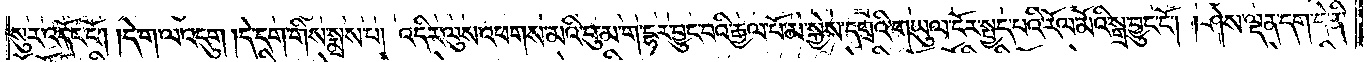སུར་འདོང་ངོ༌། །དེ་དག་ལ་འདུག །དེ་དག་གིས་སྨྲས་པ། འདིར་ལུས་འཕགས་མའི་བུ་མ་ག་དྷར་བྱུང་བའི་རྒྱལ་པོ་མ་སྐྱེས་དགྲའི་གཡུལ་ངོར་སྤྱད་པའི་རོལ་མོའི་སྒྲ་བྱུང་ངོ༌། །ཤེས་ལྡན་དག་དེ་ནི་
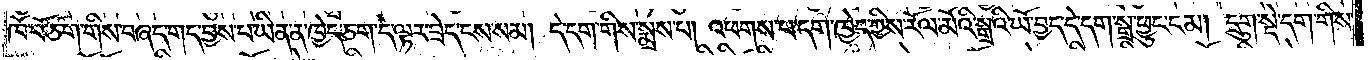ཁོ་བོ་ཅག་གིས་བཞད་གད་བྱས་པ་ཡིན་ན་ཁྱེད་ཅག་དེ་ལྟར་བྲེད་ངས་སམ། དེ་དག་གིས་སྨྲས་པ། འཕགས་པ་དག་ཁྱེད་ཀྱིས་རོལ་མོའི་སྒྲའི་ཡོ་བྱད་དེ་དག་སྒྲ་ཕྱུང་ངམ། དྲུག་སྡེ་དག་གིས་
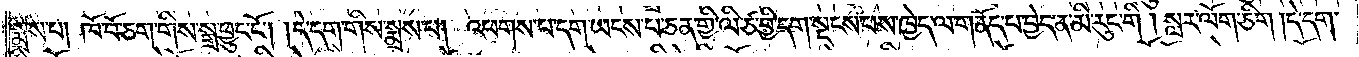སྨྲས་པ། ཁོ་བོ་ཅག་གིས་སྒྲ་ཕྱུང་ངོ༌། །དེ་དག་གིས་སྨྲས་པ། འཕགས་པ་དག་ཡངས་པ་ཅན་གྱི་ལི་ཙ་བྱི་དག་སྡངས་པས་ཁྱེད་ལ་གནོད་པ་བྱེད་ན་མི་རུང་གི །སླར་ལོག་ཅིག །དེ་དག་
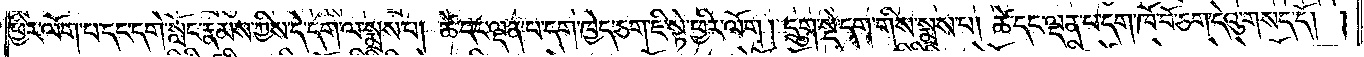ཕྱིར་ལོག་པ་དང་དགེ་སློང་རྣམས་ཀྱིས་དེ་དག་ལ་སྨྲས་པ། ཚེ་དང་ལྡན་པ་དག་ཁྱེད་ཅག་ཇི་སྟེ་ཕྱིར་ལོག །དྲུག་སྡེ་དག་གིས་སྨྲས་པ། ཚེ་དང་ལྡན་པ་དག་ཁོ་བོ་ཅག་དེའུ་གསད་དོ། །
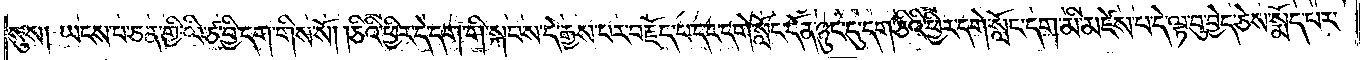སུས། ཡངས་པ་ཅན་གྱི་ལི་ཙ་བྱི་དག་གིས་སོ། །ཅིའི་ཕྱིར་དེ་དག་གིས་སྐབས་དེ་རྒྱས་པར་བརྗོད་པ་དང་དགེ་སློང་དོན་ཉུང་དུ་དག་ཅིའི་ཕྱིར་དགེ་སློང་དག་མི་མཛེས་པ་དེ་ལྟ་བུ་བྱེད་ཅེས་སྨོད་པར་
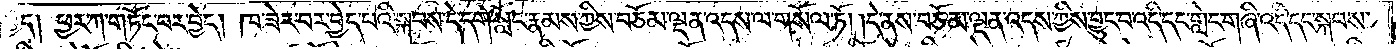བྱེད། ཕྱར་ཀ་གཏོང་བར་བྱེད། ཁ་ཟེར་བར་བྱེད་པའི་སྐབས་དེ་དགེ་སློང་རྣམས་ཀྱིས་བཅོམ་ལྡན་འདས་ལ་གསོལ་ཏོ། །དེ་ནས་བཅོམ་ལྡན་འདས་ཀྱིས་བྱུང་བ་འདི་དང་གླེང་གཞི་འདི་དང་སྐབས་
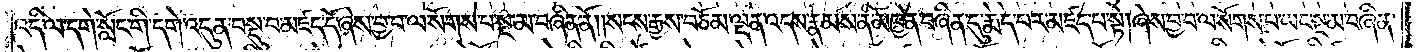འདི་ལ་དགེ་སློང་གི་དགེ་འདུན་བསྡུ་བ་མཛད་དོ་ཞེས་བྱ་བ་ལ་སོགས་པ་སྔ་མ་བཞིན་ནོ། །སངས་རྒྱས་བཅོམ་ལྡན་འདས་རྣམས་ནི་མཁྱེན་བཞིན་དུ་རྨེད་པར་མཛད་པ་སྟེ། ཞེས་བྱ་བ་ལ་སོགས་པ་ཡང་སྔ་མ་བཞིན་
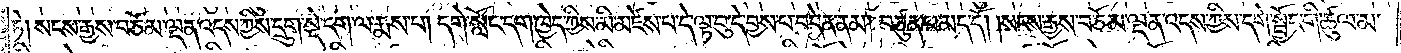ཏེ། སངས་རྒྱས་བཅོམ་ལྡན་འདས་ཀྱིས་དྲུག་སྡེ་དག་ལ་རྨས་པ། དགེ་སློང་དག་ཁྱེད་ཀྱིས་མི་མཛེས་པ་དེ་ལྟ་བུ་དེ་བྱས་པ་བདེན་ནམ། བཙུན་པ་མད་དོ། །སངས་རྒྱས་བཅོམ་ལྡན་འདས་ཀྱིས་དགེ་སྦྱོང་གི་ཚུལ་མ་
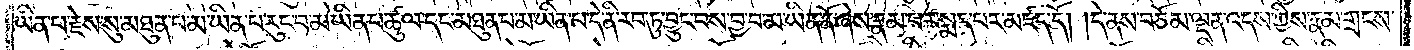ཡིན་པ་རྗེས་སུ་མཐུན་པ་མ་ཡིན་པ་རུང་བ་མ་ཡིན་པ་ཚུལ་དང་མཐུན་པ་མ་ཡིན་པ་དེ་ནི་རབ་ཏུ་བྱུང་བས་བྱ་བ་མ་ཡིན་ནོ་ཞེས་རྣམ་པར་སྨད་པར་མཛད་དོ། །དེ་ནས་བཅོམ་ལྡན་འདས་ཀྱིས་རྣམ་གྲངས་
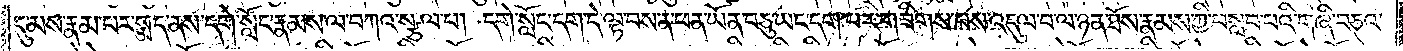དུ་མས་རྣམ་པར་སྨད་ནས་དགེ་སློང་རྣམས་ལ་བཀའ་སྩལ་པ། དགེ་སློང་དག་དེ་ལྟ་བས་ན་ཕན་ཡོན་བཅུ་ཡང་དག་པར་གཟིགས་པས་འདུལ་བ་ལ་ཉན་ཐོས་རྣམས་ཀྱི་བསླབ་པའི་གཞི་བཅའ་
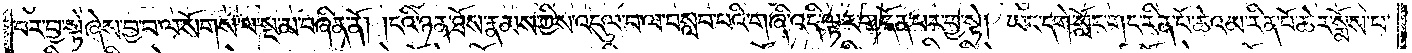བར་བྱ་སྟེ་ཞེས་བྱ་བ་ལ་སོགས་པ་སྔ་མ་བཞིན་ནོ། །ངའི་ཉན་ཐོས་རྣམས་ཀྱིས་འདུལ་བ་ལ་བསླབ་པའི་གཞི་འདི་ལྟར་གདོན་པར་བྱ་སྟེ། ཡང་དགེ་སློང་གང་རིན་པོ་ཆེའམ་རིན་པོ་ཆེར་སྨོས་པ་
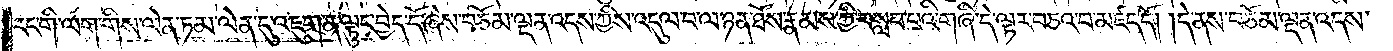རང་གི་ལག་གིས་ལེན་ཏམ་ལེན་དུ་འཇུག་ན་ལྟུང་བྱེད་དོ་ཞེས་བཅོམ་ལྡན་འདས་ཀྱིས་འདུལ་བ་ལ་ཉན་ཐོས་རྣམས་ཀྱི་བསླབ་པའི་གཞི་དེ་ལྟར་བཅའ་བ་མཛད་དོ། །དེ་ནས་བཅོམ་ལྡན་འདས་
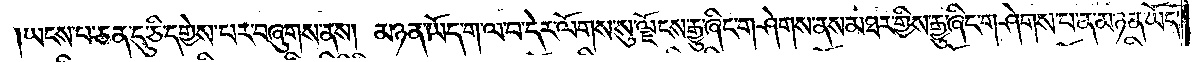།ཡངས་པ་ཅན་དུ་ཅི་དགྱེས་པར་བཞུགས་ནས། མཉན་ཡོད་ག་ལ་བ་དེར་ལོགས་སུ་ལྗོངས་རྒྱུ་ཞིང་གཤེགས་ནས་མཐར་གྱིས་རྒྱུ་ཞིང་གཤེགས་པ་ན་མཉན་ཡོད་
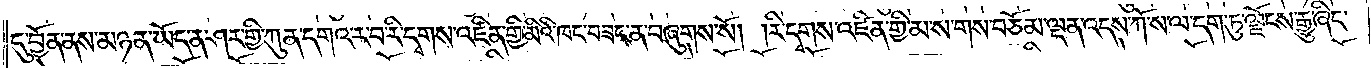དུ་བྱོན་ནས་མཉན་ཡོད་ན་ཤར་གྱི་ཀུན་དགའ་ར་བ་རི་དྭགས་འཛིན་གྱི་མིའི་ཁང་བཟང་ན་བཞུགས་སོ། །རི་དྭགས་འཛིན་གྱི་མ་ས་གས་བཅོམ་ལྡན་འདས་ཀོ་ས་ལ་དག་ཏུ་ལྗོངས་རྒྱུ་ཞིང་
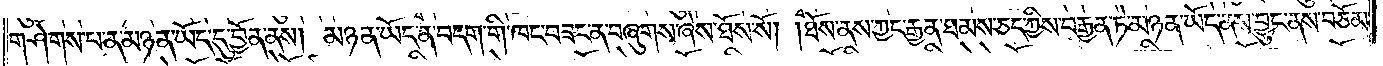གཤེགས་པ་ན་མཉན་ཡོད་དུ་བྱོན་ནས། མཉན་ཡོད་ན་བདག་གི་ཁང་བཟང་ན་བཞུགས་ཞེས་ཐོས་སོ། །ཐོས་ནས་ཀྱང་རྒྱན་ཐམས་ཅད་ཀྱིས་བརྒྱན་ཏེ་མཉན་ཡོད་ནས་བྱུང་ནས་བཅོམ་
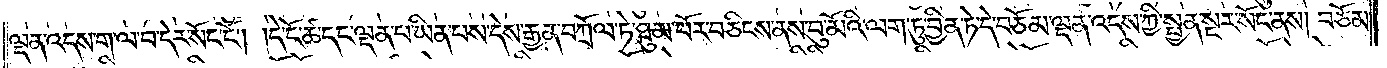ལྡན་འདས་ག་ལ་བ་དེར་སོང་ངོ༌། །དེ་ངོ་ཚ་དང་ལྡན་པ་ཡིན་པས་དེས་རྒྱན་བཀྲོལ་ཏེ་ཐུམ་པོར་བཅིངས་ནས་བུ་མོའི་ལག་ཏུ་བྱིན་ཏེ་དེ་བཅོམ་ལྡན་འདས་ཀྱིས་སྤྱན་སྔར་སོང་ནས། བཅོམ་
